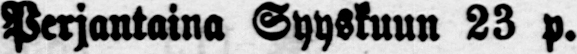Perjantaina Syyskuun 23 p.
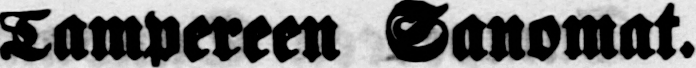Tampereen Sanomat.
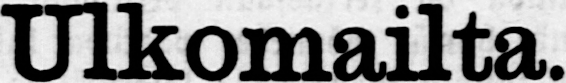Ulkomailta.
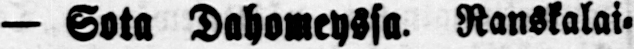— Sota Dahomeyssa. Ranskalai-
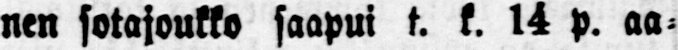nen sotajoukko saapui t. k. 14 p. aa-
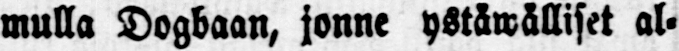mulla Dogbaan, jonne ystäwälliset al-
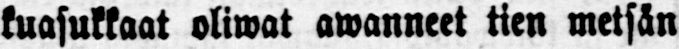kuasukkaat oliwat awanneet tien metsän
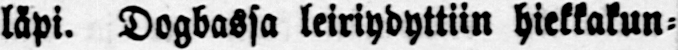läpi. Dogbassa leiriydyttiin hiekkakun-
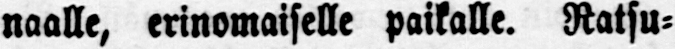naalle, erinomaiselle paikalle. Ratsu-
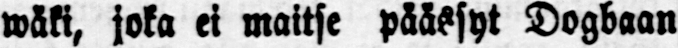wäki, joka ei maitse päässyt Dogbaan
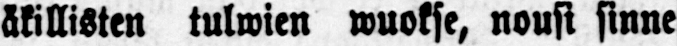äkillisten tulwien wuokse, nousi sinne
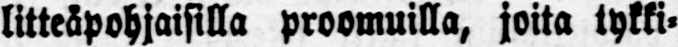litteäpohjaisilla proomuilla, joita tykki-
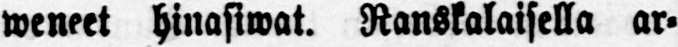weneet hinasiwat. Ranskalaisella ar-
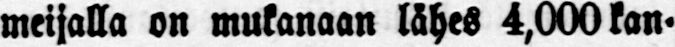meijalla on mukanaan lähes 4,000 kan-
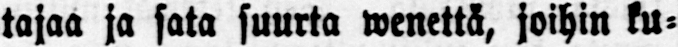tajaa ja sata suurta wenettä, joihin ku-
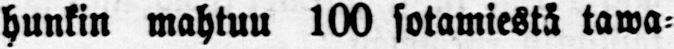hunkin mahtuu 100 sotamiestä tawa-
